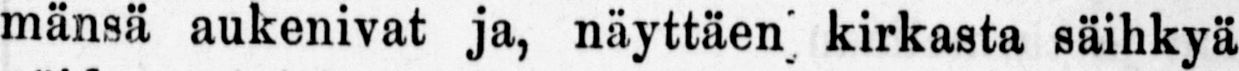mänsä aukenivat ja, näyttäen kirkasta säihkyä
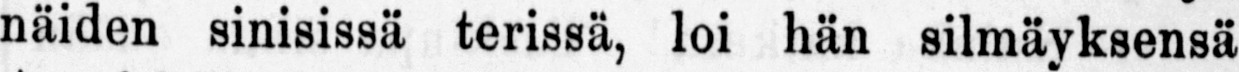näiden sinisissä terissä, loi hän silmäyksensä
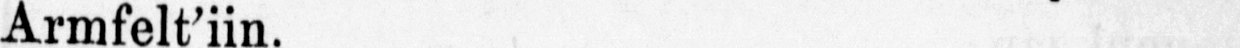Armfelt'iin.
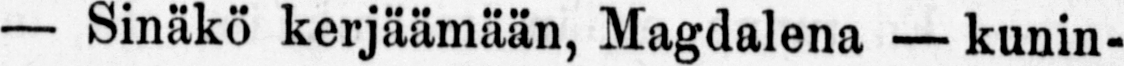— Sinäkö kerjäämään, Magdalena — kunin-
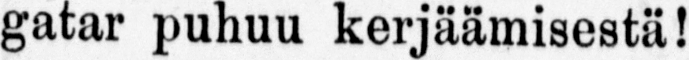gatar puhuu kerjäämisestä!
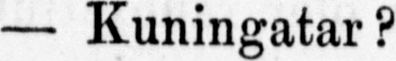— Kuningatar?
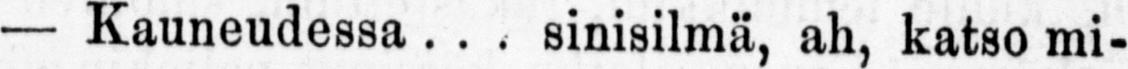— Kauneudessa . . . sinisilmä, ah, katso mi-
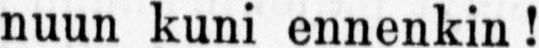nuun kuni ennenkin!
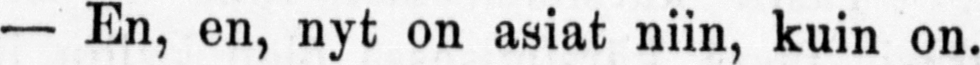— En, en, nyt on asiat niin, kuin on.
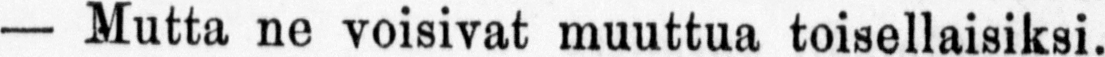— Mutta ne voisivat muuttua toisellaisiksi.
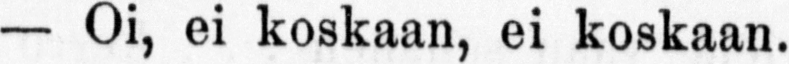— Oi, ei koskaan, ei koskaan.
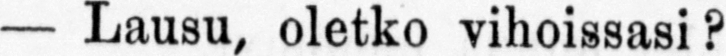— Lausu, oletko vihoissasi?
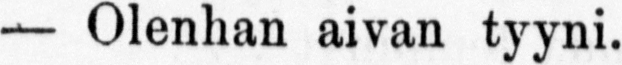— Olenhan aivan tyyni.
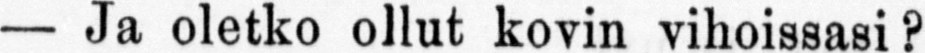— ÀJ oletko ollut kovin vihoissasi?
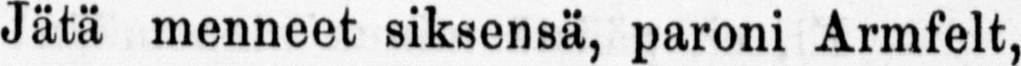Jätä menneet siksensä, paroni Armfelt,
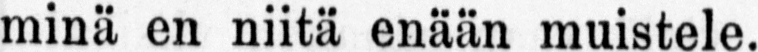minä en niitä enään muistele.
